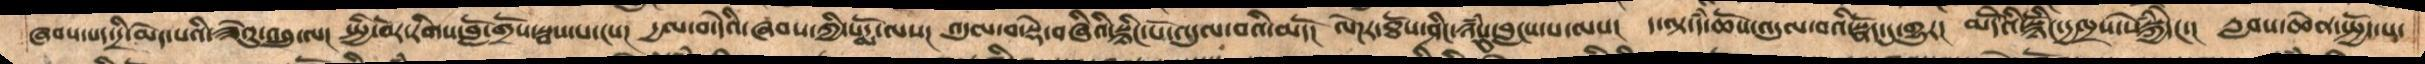ཞབས་པད་དྲི་མེད་པའི་ཟིའུ་འབྲུ་ལ།  སྤྱི་བོར་རིགས་བློ་གྲོས་སྦས་པ་ངས།  དྱལ་བ་དེའི་ཞབས་ཀྱི་པདྨོ་ལས། འདུལ་བ་སྡེ་བཞིའི་སྙིང་པོ་འདུལ་བའི་མདོ།  ལེཌར་ཐོས་ཤིང་ཉཾསུ་བླངས་པ་ལས།  ད་ལྟ་དཾ་ཆོས་འདུལ་བའི་སྣོད་དུ་གྱུར།  མདོེའི་སྙིངོ་དྱལྲས་སེཾསྐྱེདང་།  རླབས་ཆེན་སྤྱོད་པ་
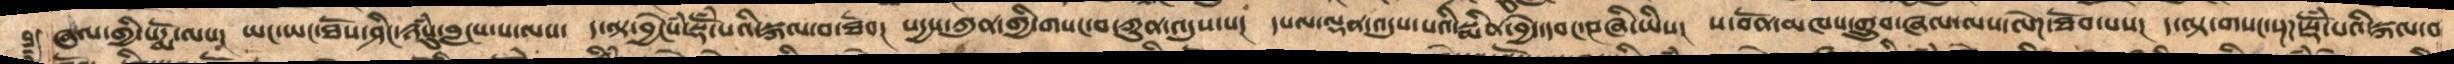ཞལ་གྱི་པདྨོ་ལས།  ཡང་ཡང་ཐོས་ཤིང་ཉཾསུ་བླངས་པ་ལས།  ད་ལྟ་བྱངེཾས་སྡོཾ་པའི་སྐལ་བ་ཐོབ།  སདྱས་ཀུན་གྱི་གསང་བ་ཀུན་འདུས་པ།  དཔལ་ལྡན་འདུས་པའི་སྨིན་བྱེད་དབང་བཞི་ཡི།  ས་བོན་མཁས་གྲུབ་ཞལ་ལས་ལེཌ་ཐོབ་པས།  ད་ལྟ་གསང་སྔཌ་སྡོཾ་པའི་སྐལ་བ་
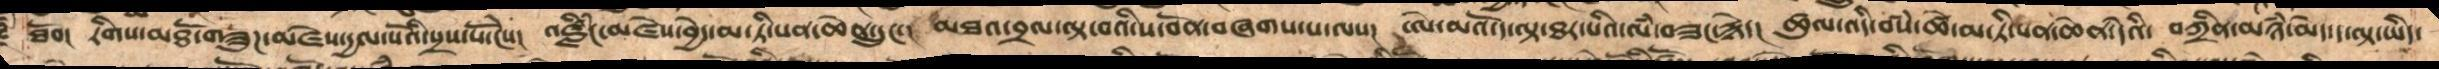ཐོབ།  རིགས་མཐོ་གཟུཌ་མཛེས་དྱལ་པོའི་སྲས་པོ་ངེས།  འཛླིཾང་མཛེས་བྱེད་མ་ཏི་པན་ཆེན་དྲུང་།  མཐའ་བྲལ་ལྟ་བའི་ས་བོན་བཞགས་པ་ལས།  ཨེ་མའོ་ད་ལྟ་ཐར་པའི་ལཾ་བཟང་རྙེད།  ཚུལ་འདི་བསཾ་ཚེ་མ་ཏི་པན་ཆེན་དེའི།  བཀྲིན་མཉཾ་མེད་ད་ལྟ་ཡིད་
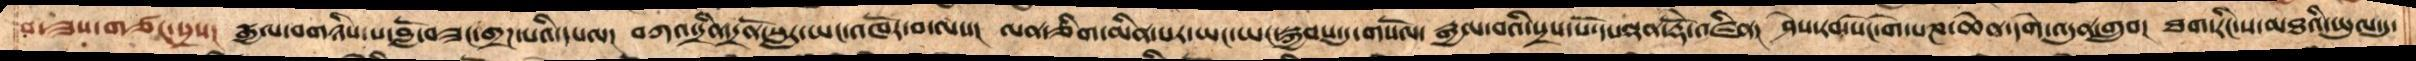བ་ཟས་གཙང་སྲས།  རྒྱལ་བགཉིས་པ་བློ་བཟང་གྲཌ་པའི་དཔལ།  བཀའ་དྲིན་དྲནོ་སླར་ཡང་འཁོར་བ་ལས།  ལན་ཅིག་མིན་པར་ཡང་ཡང་བསྐྱབས་དུ་གསོལ།  རྒྱལ་བའི་སྲས་པོ་དཔལ་ལྡན་རྡོེ་འཛིན།  ཤེས་རབ་སེང་གེ་པཎ་ཆེན་དགེ་འདུན་གྲུབ།  ཐག་རིང་ས་མཐའི་ཡུལ་དུ་
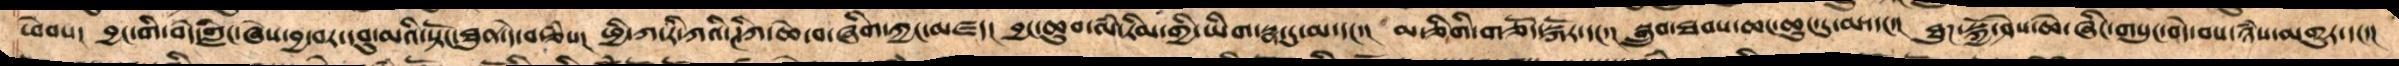ཕེབས།  བྱང་གི་བདེ་གླིང་ཞེས་བྱ་བར་དབུ་མའི་སྟོང་ཐུན་དེ་བརྩཾས།  ཕྱིས་ཀ་རི་ཀའི་ཊིཀ་ཆེ་བ་ཞིག་ཀྱང་མཛད།  བྱང་ཆུབ་ལཾ་རིམ་གྱི་ཡིག་སྣ་དུ་མ་དང་།  མ་ཅིགི་གཅོད་སྐོར་དང་།  སྒྲུབ་ཐབས་ཆང་ཆུང་དུ་མ་དང་།  ཐུཌ་སྐྱོ་ཤེས་ཆེ་ཞིང་གསུང་བདེ་བས་ཉཾས་མགུར་དང་།
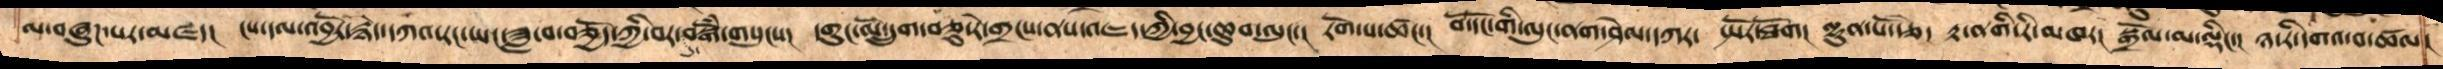ལ་བཞུཌ་པར་མཛད།  ངས་དལ་འབྱོར་རྙེད་དཀའ་རང་ཡང་ཟླ་བ་བཅྱོད་ཀྱི་བར་དུ་བསྒོཾ་གསུངས།  དགུང་ལོ་དྲུག་བཅུ་རེ་གྲངས་ནས་འཇད་ཀྱི་བྱང་ཆུབ་ལུང་། རེག་པ་ཚང་།  བོ་དོང་གི་ལུང་ནག་ཤེལ་དཀར། སྤར་ཐོག།  ལྷུན་པོ་རྩེ།  རྟ་ནགི་རི་མཁར། སྒྲོལ་མ་ལྡིང་། ཉ་རི་དགའ་བ་ཚལ།
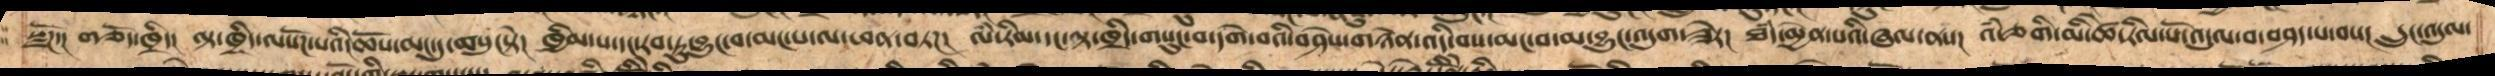སྫོཌ།  གཅོད་ཁྲིད།  ལྟ་ཁྲིད་ལསོཌ་པའི་ཆོས་མང་དུ་གསུངསྟེ།  ཁྱིམ་པ་དང་རབ་ཏུ་བྱུང་བ་མང་པ་ལ་ཕན་བཏཌ།  ལཾ་རིམ་དང་ལྟ་ཁྲིད་གསུང་བ་དགེ་བའི་བཤེས་གཉེན་འདི་བས་མང་བ་མ་བྱུང་བ་འདུག་ཟེར།  ཐཾད་མྱེན་པའི་ཞལ་ནས།  འཾ་ཅགི་མི་ཚེ་རིལ་པོ་འདུལ་བ་བཤད་པ་བས།  དྲུང་འདུལ་
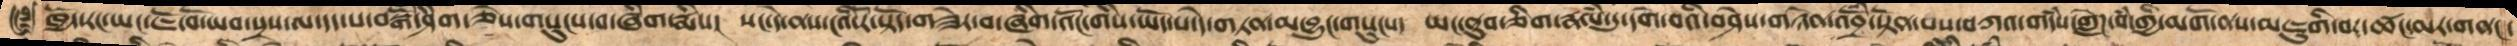ཁྱོད་རང་ཡང་ཇོ་བོ་ཡབ་སྲས་ལ་དད་པ་བསྒོཾ་ཤིག་ཅེས་གསུངས་བ་ཞིག་རྨིས།  སང་དེ་ནས་ངའི་རོ་སྟོད་གཟེར་བ་ཞིག་འོང་གི་ཡོད་པ་དེ་གཏན་མ་བྱུང་གསུངས།  ཡང་ནུབ་ཅིག་རྣལཾ་དུ་དགེ་བའི་བཤེས་གཉེན་འབྲོཾ་སྟོན་པས་བཀའ་གདཾས་གླེཌ་བཾ་གྱི་མགོ་ནས་མཇུགི་བར་ཚང་མར་གནང་
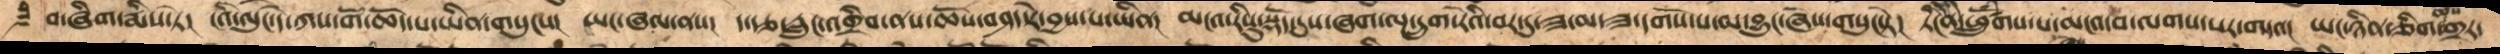བ་ཞིག་རྨིས་ཏེ།  ངའི་ལུང་དེ་ཀས་གོ་ཆོད་པ་ཡིན་གསུངས། ཡང་ཞལ་ནས། ད་རྩ་རླུང་འགྲིབ་ནས་ཆོས་བཤད་རེ་བྱས་པ་ཡིན། མངའ་རིསུ་སྡོད་དུས་ཞག་ལྔ་དྲུག་རེའི་བར་དུ་ཟ་མ་ཟ་དགོས་པ་མ་བྱུང་ཞེས་གསུངསྟེ། ཏིངེནི་ཕོུུཾགས་པ་མངའ་བ་ལགས་པར་གདའ། ཡང་ཉིན་ཅིག་ཆོས་གྲར་
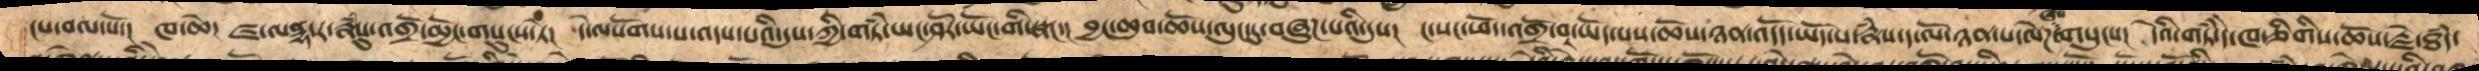ངས་བལ་པོ། ཁ་ཆེ། ཛ་ལན་དྷ་ར་རྣཾསུ་འགྲོ་མྱོང་གསུངས་ཏེ། དེ་ལ་སོགས་པ་འདས་པའི་དུས་ཀྱི་གཏཾ་ཡང་ཤོར་ཡོང་གི་སྣང་། བྱང་ཆུབ་ཆོས་ལུང་དུ་བཞུཌ་པའི་དུས། ང་སང་ཕོད་འགྲོ་བར་ཡོད་པས་ཆོས་ཉན་འདོད་ཡོད་པ་རྣཾས་ད་ལོ་ཉན་པ་ལེཌ་ཞེས་གསུངས། དེའི་གཏཾ་དེ་ཁ་ཅིགིས་ཆོས་རྗེ་ཐཾད་
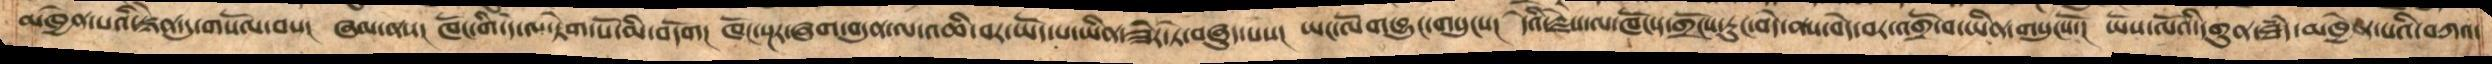མཁྱེན་པའི་སྙེན་དུ་གསོལ་བས།  ཞལ་ནས།  ཁོང་གི་དེ་ལ་ཏེག་པོ་མི་བདོག།  ཁོང་སྔར་ཞག་བདུན་ལ་འཆི་བར་ཡོད་པ་ཡིན་ཟེར་ཏེ་བཞུད་པས།  ཡང་ལོག་བྱུང་གསུངས།  དེའི་རྗེས་ལ་ཁོང་ད་གྲོངས་རུང་བདེ་ནས་བདེ་བར་འགྲོ་བ་ཡིན་གསུངསོ།  ཡོས་ལོའི་དགུན་ཐཾད་མཁྱེན་པའི་བཀའ་
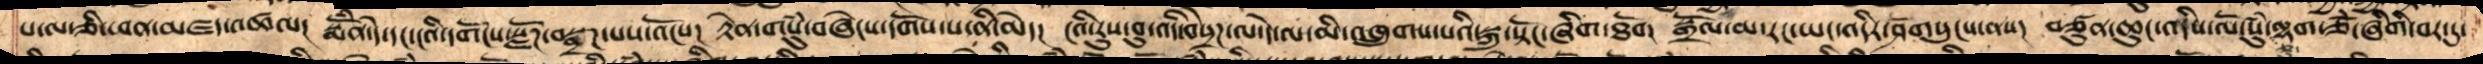པ་ལ་ཅི་ཕན་མཛད་འཚལ།  སྨོཾན་དེ་དང་ངའི་དགོངས་སྫོཌ་བསྒྲཌ་པས་འོངས།  རྟེན་གསུཾ་བཞེངས་དགོས་པ་ནི་མེད།  ངའི་རུས་བུ་འདི་བསྲེཌ་ལ་དེ་ལ་མི་འཁྲུགས་པའི་སྐུ་སྟོང་ཞིག་ཐོབ།  སྒྲོལ་མ་རང་ཡང་འདིར་ཤོག་གསུངས་ནས།  བཙུན་ཆུང་འདིས་ལོ་སུཾ་ཅུ་ལྷག་ཙཾ་ཞིགི་བར་དུ་
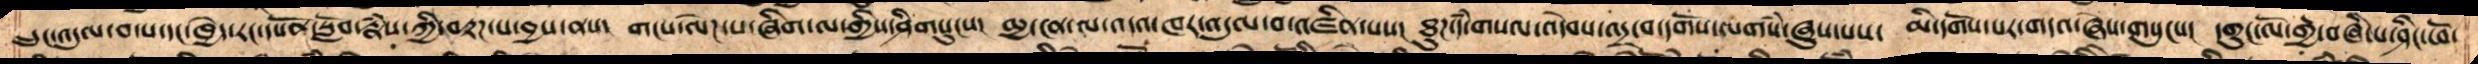དྲུང་འདུལ་བ་པ་དང་ཁྱེད་རང་དཔོན་སློབ་རྣཾས་ཀྱི་བརྟཌ་པ་བྱས་ནས།  གང་ལེཌ་པ་ཞིིག་ལ་གྱིས་ཤིགསུངས།  མྱ་ངན་ལ་འདའ་ཁར་འདུལ་བ་འཛིན་པས།  ཐུཌ་དཾ་གསལ་འདེབས་འདྲ་བ་དགོས་ལགསཾ་ཞུས་པས།  མི་དགོས་པར་གདའ་ཞེས་གསུངས།  དགུང་ལོ་གྱ་བཞི་པ་ཤིང་ཕོ་
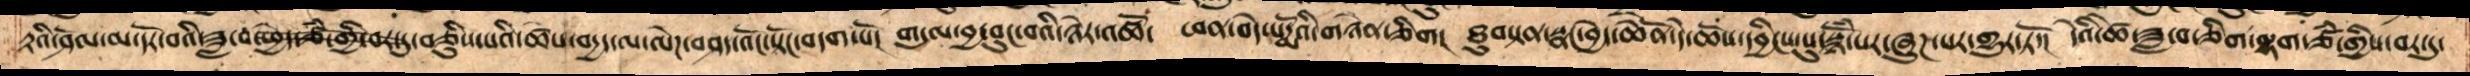རྟའི་ཤོལ་མ་དོར་བའི་ཟླ་བ་ཕྱེད་ཙཾ་གྱི་བར་དུ་བཅིུས་པའི་ཚེས་བདྱད་ལ་ལེཌ་བཤད་འོད་སྟོང་བདག་པོ།  གདུལ་བྱ་བུང་བའི་ཉེར་འཚོ།  ཕན་བདེ་པདྨོའི་གཉེན་ཅིག།  ཐུབསྟན་སྣང་བྱེད་ཆེནོ་དེ་ཆོས་ཀྱི་དབྱིངས་སུ་སྙོཾ་པར་ཞུཌ་པར་གྱུར་ཏོ།  དེའི་ཚེ་ཟླ་བ་ཅིག་ལྷག་ཙཾ་གྱི་བར་དུ་
